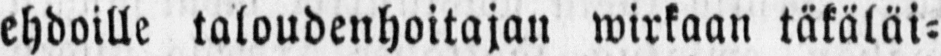ehdoille taloudenhoitajan wirkaan täkäläi-
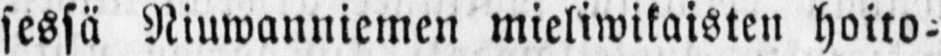sessä Niuwanniemen mieliwikaisten hoito-
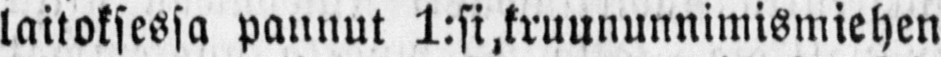laitoksessa pannut 1:si, kruununnimismiehen
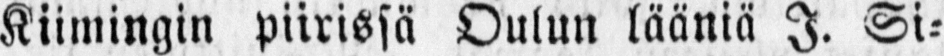Kiimingin piirissä Oulun lääniä I. Si--
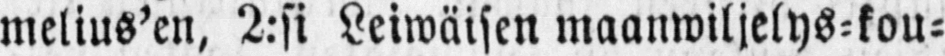melius’en, 2:si Leiwäisen maanwiljelys-kou-
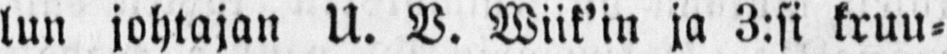lun johtajan U. V. Wiik’in ja 3:si kruu-
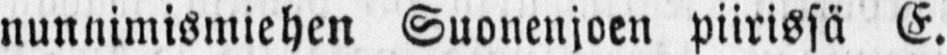nunnimismiehen Suonenjoen piirissä E.
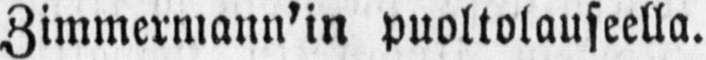Zimmermann'in puoltolauseella.
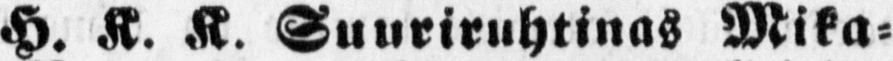H. K. K. Suuriruhtinas Mika-
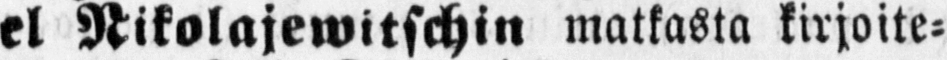el Nikolajewitschin matkasta kirjoite-
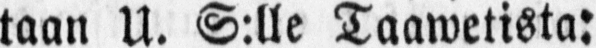taan U. S:lle Taawetista:
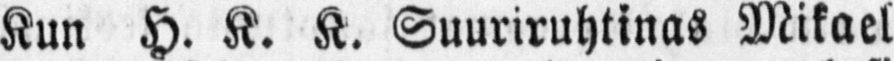Kun H. K. K. Suuriruhtinas Mikael
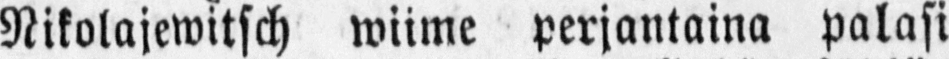Nikolajewitsch wiime perjantaina palasi
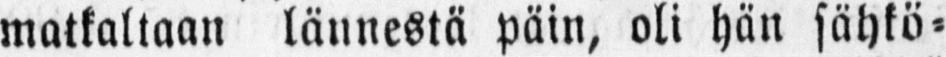matkaltaan lännestä päin, oli hän sähkö-
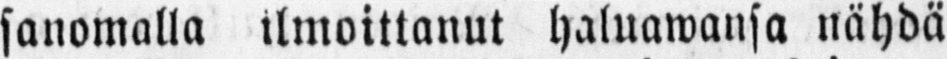sanomalla ilmoittanut haluawansa nähdä
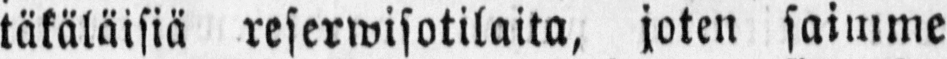täkäläisiä reserwisotilaita, joten saimme
